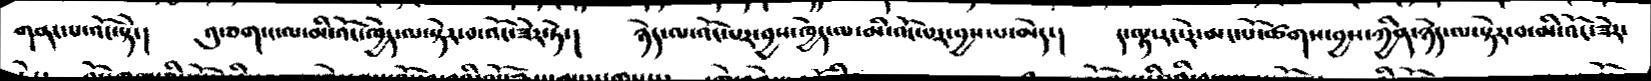གནང་པ་འོང་སྟེ་།  འུ་ཅག་ང་ལ་མི་འོང་ཁྱེད་ལ་སྟེར་བ་འོང་ཟེར་ཏེ་།  ཉེད་ལ་འོང་པར་བྱས་ཁྱེད་ལ་མི་འོང་པར་བྱས་པ་མེད་།  ད་ལྟ་རང་རེ་མང་པོ་ཚགས་བྱས་་ཀྱིན་ཉེད་ལ་སྟེར་བ་མི་འོང་ཟེར་
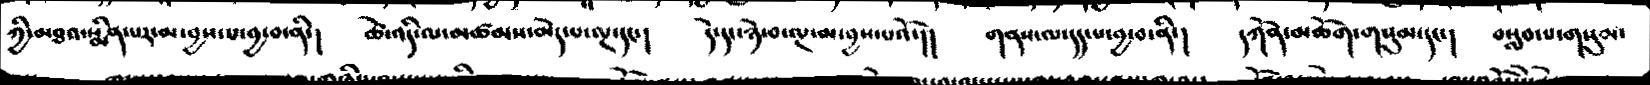ཀྱི་མཐའ་སྨིན་པར་མ་བྱས་པ་བྱ་བ་ནི་།  ཚེ་འདི་ལ་མཚམས་མེད་པ་ལྔ་དང་།  དེ་དང་ཉེ་བ་ལྔ་མ་བྱས་པའོ་།།   གནས་ལ་དད་པ་བྱ་བ་ནི་།  དཀོན་མཆོག་གསུམ་དང་།  བསླབ་པ་གསུམ་
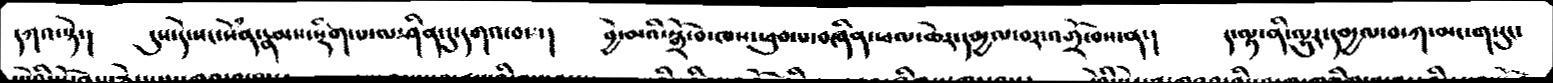དཀའ་སྟེ་།   དུས་དེ་སང་སེཾན་རྣམས་སྡིག་པ་ལ་ཤིན་དུ་དགའ་བས།   བྱེ་མའི་སྒྲོ་བ་ཁས་ཕུབ་པ་བཞིན་ཕལ་ཆེར་དམྱལ་བར་འགྲོ་བས་ན་།   ད་ལྟ་ནི་ལྷུར་དམྱལ་བ་ཀ་མང་གསུང་
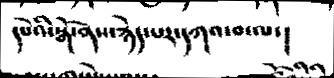དཔེའི་སྒོ་ནས་རྙེད་པར་དཀའ་བ་ལ་།
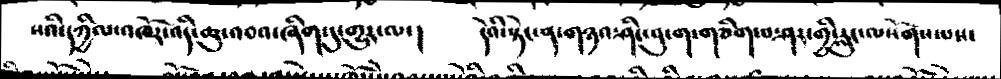སའི་དཀྱིལ་འཁོར་འདི་ཆུ་འབའ་ཞིག་དུ་གྱུར་ལ་།   དེའི་སྟེང་ན་གཉལ་ཤིང་བུ་ག་གཅིག་པ་ཤར་གྱི་རླུང་ལསོགས་པས་
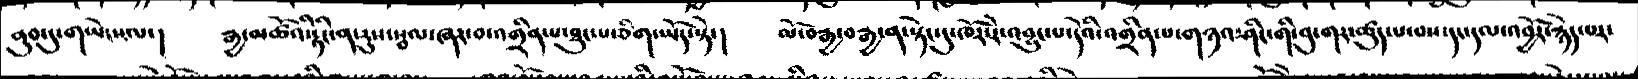ནུག་དུ་གཡེངས་ལ་།   རྒྱ་མཚོའི་རྟིངི་ན་རུས་སྦལ་ཞར་བ་འགྲིན་པ་ཐུང་པ་ཅིག་ཡོད་སྟེ་།  ལོ་བརྒྱ་བརྒྱ་ན་སྟེང་དུ་ཁོར་རེ་འབྱུང་པ་དེའི་འགྲིན་པ་གཉའ་ཤིང་གི་བུ་གར་ཚུད་པ་བས་དང་དལ་འབྱོར་རྙེད་པར་
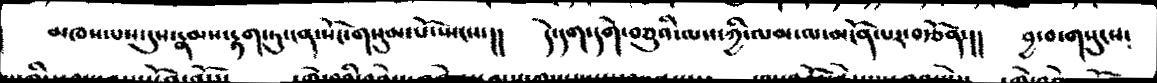མཁས་པས་དུས་རྣམས་རྟག་ཏུ་ན་སོང་གསུམ་པོ་སྤངས་།།  དེ་དག་དགེ་བཅུའི་ལས་ཀྱི་ལམ་ལ་མངོན་པར་བརྩོན་།།  བྱ་བ་གསུངས༴
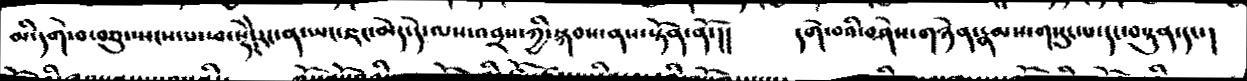མི་དགེ་བ་བཅུ་སྤངས་པ་ཕ་སྡེེར་རང་ན་ཡང་ཇང་མེད་དེ་ལས་འབྲས་ཀྱི་སྐབས་ནས་སྟོན་ནོ་།།།   དགེ་བའི་བཤེས་གཉེན་རྣམས་གསུང་པ་དང་བསྟུན་དང་།
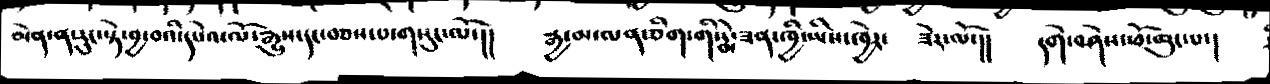མེན་ན་རུང་སྟེ་བྱ་བའི་དཔེའ་ལོ་རྒྱུས་དང་བཅས་པ་གསུང་ལོ་།།  རྒྱམ་ལན་ཅིག་གི་དྨེ་ཟན་ཁྱི་ཡིས་ཁྱེར་    ཟེར་ལོ་།།    དགེ་བཤེས་ཕོ་ཆུང་པ་།
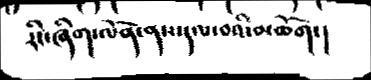རིང་ཞིག་ལོན་ནས་དལ་བའི་མཆོག་།
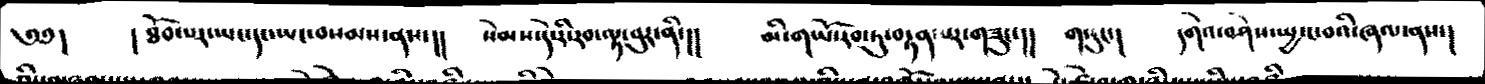༄༅།   ། ཐོབ་པར་ཡང་དང་ཡང་བསམས་ནས་།།  སེམས་དེ་རི་རབ་ལྟ་བུར་ནི་།།  མི་གཡོ་རབ་ཏུ་བརྟན་པར་གཟུང་།།  ག་རུང་།  དགེའ་བཤེས་སྤྱ་ང་བའི་ཞལ་ནས་།
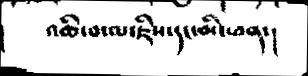འཆི་བ་ལ་ཇིས་དང་མི་ཕན་།
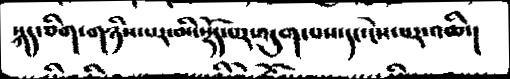སྐད་ཅིག་གཉིས་པར་མི་སྡོད་པར་འདུག་པས་དང་ངེས་པར་འཆི་།
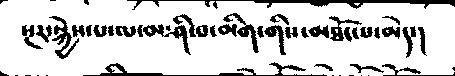སྔར་སྐྱེས་པ་ལ་མ་ཤི་བ་མིག་གིས་མཐོང་པ་མེད་།
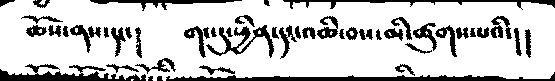ཆོས་ནས་དང་།   གང་དུ་ཕྱིན་དང་འཆི་བས་མི་ཚུགས་པའི་།།
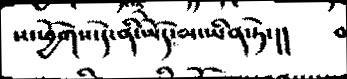ས་ཕྱོགས་དེ་ནི་ཡོད་མ་ཡིན་ཏེ་།།
